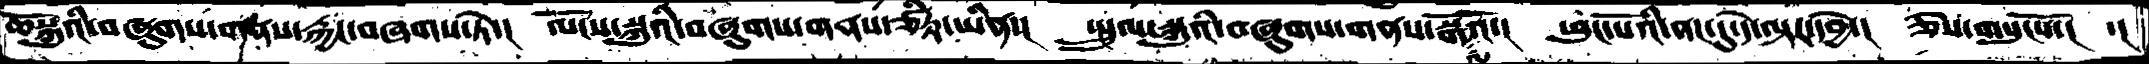ཆོསྐུའི་བཞུགས་གནས་རྐྱང་བཞགས་ཏེ་།  ལོངས་སྐུའི་བཞུགས་གནས་ཙིཏྟ་ཡིན་།  སྤྲུལ་སྐུའི་བཞུགས་གནས་སྒོའོ་།  ཕུང་པོའི་ནང་དུ་དེ་ལྟར་དབྱེ་།  ཅེས་གསུངསོ་།  ་།
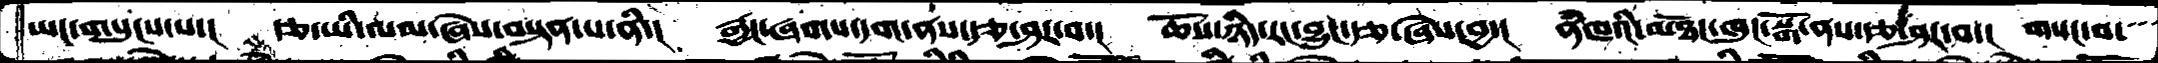ཡང་གསུངས་པ་།  རྩ་ཡི་ལམ་ཞེས་བསྟན་པ་ནི་།  རྒྱང་ཞགས་དག་ནས་རྩ་ཤར་བ་།  ཆོས་ཉིད་རང་བྱུང་རྩ་ཞེས་བྱ་།  ནཾཁའི་མཐོང་ཁུང་སྒོ་ནས་རྩ་ཤར་བ་།  གསང་བ་
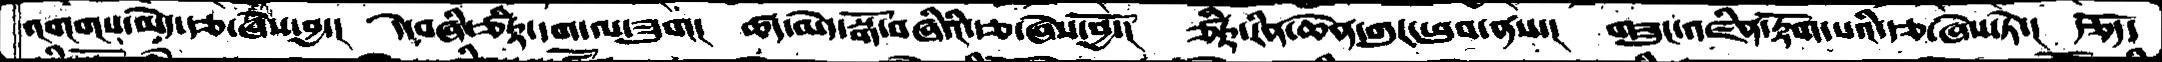འགགས་མེད་རྩ་ཞེས་བྱ་།  དེ་བཞི་ཙིཏྟ་དག་ལ་ཟུག།  ཚད་མེད་སྒོ་བཞིའི་རྩ་ཞེས་བྱོ་།  ཙིཏྟ་རིན་ཆེན་གུར་ཕུབ་ནས་།  གཟུང་འཛིན་རྟོག་པའི་རྩ་ཞེས་ཏེ་།  རྩོད་
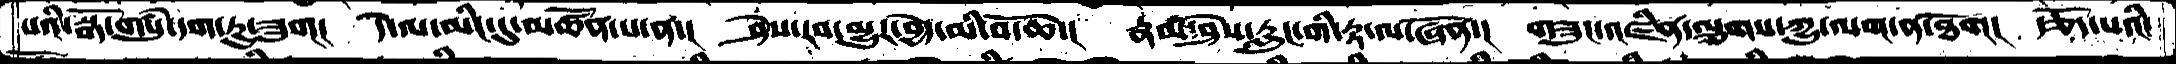པའི་སྒོ་གསུཾ་དག་ཏུ་ཟུག།  དེ་ལ་མིང་དུ་མཚོན་པ་ན་།  ཤེས་རབ་མྱུར་བྱེད་མི་བོ་ཆེ་།  རྣམ་ཤེས་རླུང་གི་རྟ་ལ་ཞོན་།  གཟུང་འཛིན་ལྕགས་ཀྱུ་ལག་ན་ཐོག།  རྩོད་པའི་
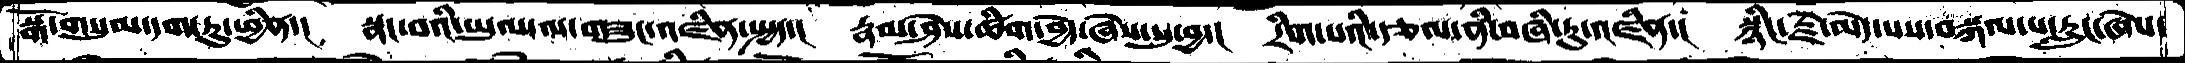སྒོ་གསུམ་དག་ཏུ་ཕྱིན་།   སྣང་བའི་ཡུལ་ལ་གཟུང་འཛིན་སྤྱད་།   རྣམ་ཤེས་ཚིག་བྱེད་ཞེས་སུ་བྱ་།  རིག་པའི་རྩལ་ནི་བཞི་རུ་འཛིན་།  སྙིང་རྗེ་མེད་པས་བསྐལ་པ་རླུང་ཞེས་
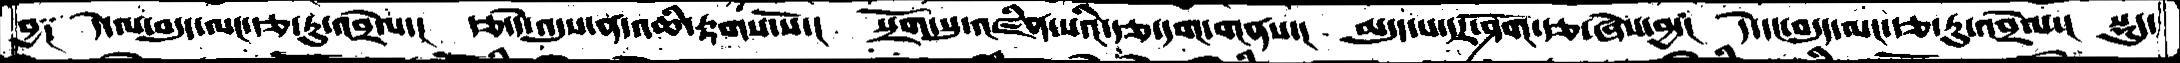བྱ༑   དེ་ལ་བདུད་ལང་རྩ་ཏུ་འབྲེལ་།  རྩ་དེ་འདུས་ན་འཆི་རྟགས་སོ་།  སྲོག་སུ་འཛིན་པའི་རྩ་དག་གནས་།  མདུད་པ་དར་ཤོག་རྩ་ཞེས་བྱ་།  དེ་དང་བདུད་མང་རྩ་ཏུ་འབྲེལ་།  སྡུད་
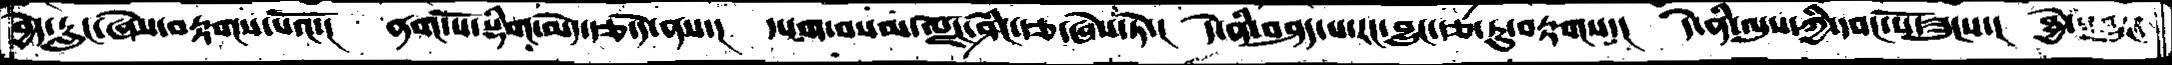བྱེད་རླུང་ཞེས་བརྟགས་པའོ་།  ནག་པོ་སྡིག་མེད་རྩ་དེ་ནས་།  དཔག་བསམ་ལྗོན་ཤིང་རྩ་ཞེས་ཏེ་།  དེ་ནི་བཤད་པ་རང་བྱུང་རྩ་རུ་བརྟགས་།  དེ་ནི་ལུས་ཀྱི་དབང་པོ་ཟུངས་།  ཐྱེ་
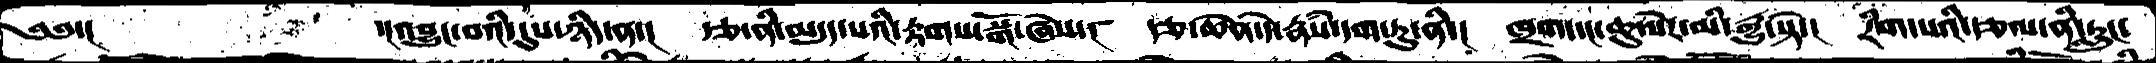༄༅་།           ་།འབྱུང་བའི་དུས་ཉིད་ན་།   རྩ་ནི་མདུད་པའི་རྟགས་སྒོ་ཞེས་།   རྩ་ཆེན་དེ་རྣཾས་དག་ཏུ་ནི་།  ཁྲག་དང་ཆུ་སེར་མི་རྒྱུ་སྟེ་།  རིག་པའི་རྩལ་ནི་རླུང་
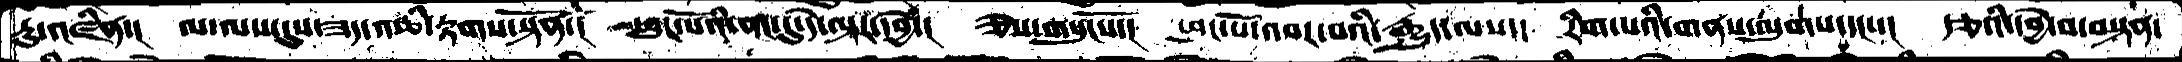རུ་འཛིན་།  ལ་ལས་དུས་ཟད་འཆི་རྟགས་སྟོན་།  ཕུང་པོའི་ནང་དུ་དེ་ལྟར་དབྱེ་།  ཅེས་གསུངསོ་།  ཕུང་པོ་འབར་བའི་རྒྱུད་ལས་།  རིག་པའི་གནས་ལུགས་དང་་།  རྩའི་དབྱེ་བ་བསྟན་
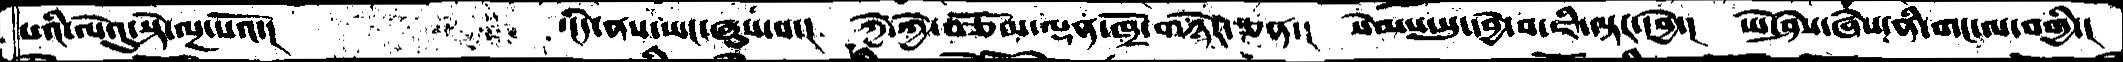པའི་ལེའུ་སྟེ་ལྔ་པའོ་།           ་ ངེད་ནས་ཡང་ཞུས་པ་།   ཀྱེ་ཀྱེ་བཅོམ་ལྡན་ཁྲོ་གཉེར་ཅན་།   སེམས་སུ་དབྱེ་བ་ཇི་ལྟར་དབྱེ་།  ཡེ་ཤེས་ཞེས་ནི་གང་ལ་བགྱི་།
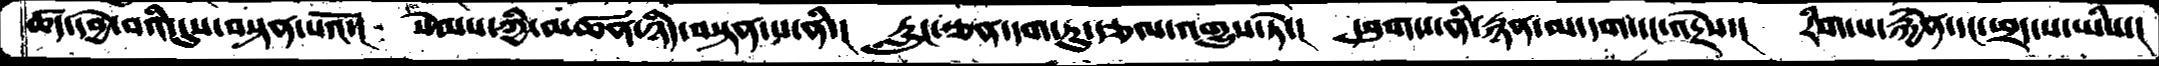ཚད་དབྱེ་བའི་དུས་བསྟན་པའོ་།  སེམས་ཀྱི་མཚན་ཉིད་བསྟན་པ་ནི་།  རླུང་ཅན་དག་ཏུ་རྩལ་འགྱུས་ཏེ་།  དབུགས་ནི་རྙན་མ་དག་དང་འདྲེས་།  རིག་པ་རྐྱེན་དང་ཕྲད་པ་ཡིས་།
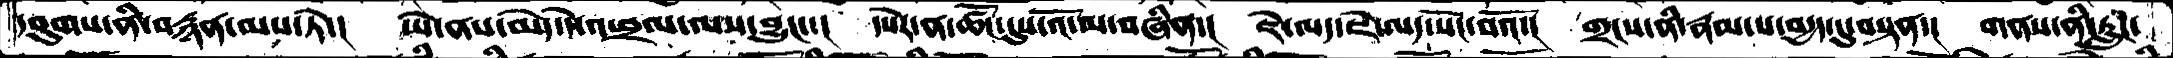དབུགས་ནི་བརྙན་མས་ཏེ་།  ཡེ་ནས་མེད་དེ་འཕྲལ་ལས་བྱུང་་།  དཔེར་ན་ཚོང་དུས་འོ་མ་བཞིན་།  ཇེ་ལད་ཇེ་ལད་སོང་བའོ་།  གྲངས་ནི་རྣམ་པ་བདྱད་དུ་བསྟན་།  གནས་ནི་རླུང་
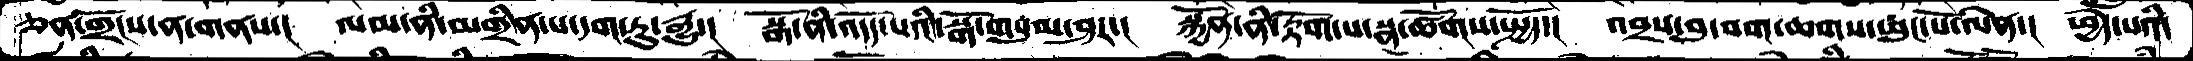ཅན་གྲོངས་ན་གནས་།  ལམ་ནི་མགྲིན་པ་དག་ཏུ་རྒྱུ་།  སྒོ་ནི་འདོད་པའི་སྒོ་གསུམ་ཤར་།  སྐྱོན་ནི་རྟོག་པ་སྣ་ཚོགས་སྤྱོད་།  འབྲས་བུ་བག་ཆགས་ཕུང་པོ་ལེན་།  ཕྱེད་པའི་
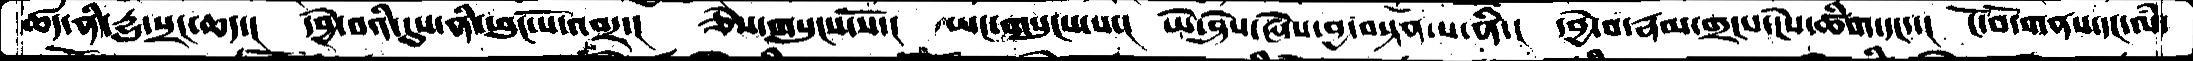ཚད་ནི་དྱུ་སྲང་ཆད་།  དབྱེ་བའི་དུས་ནི་ཕུང་པོ་འབར་།  ཅེས་གསུངས་སོ་།  ཡང་གསུངས་པ་།  ཡེ་ཤེས་ཞེས་བྱ་བསྟན་པ་ནི་།  དབྱེ་བ་རྣམ་གྲངས་ངེས་ཚིག་དང་་།  ངོ་བོ་གནས་དང་ལཾ་
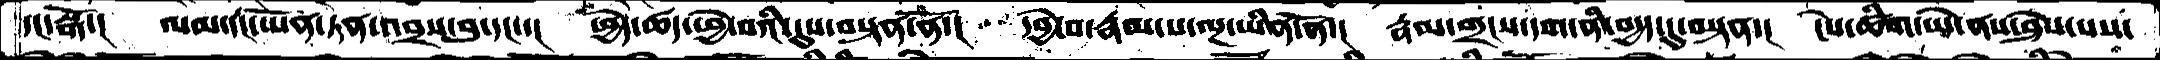དང་སྒོ་།  ལམ་དང་ཡོན་ཏན་འབྲས་བུ་དང་་།  ཕྱེད་ཚད་ཕྱེ་བའི་དུས་བསྟན་ནོ་།  དབྱེ་བ་རྣམ་པ་ལྔ་ཡིན་ནོ་།  རྣམ་གྲངས་དག་ནི་བདྱད་དུ་བསྟན་།  ངེས་ཚིག་ཡེ་ནས་ཤེས་པས་
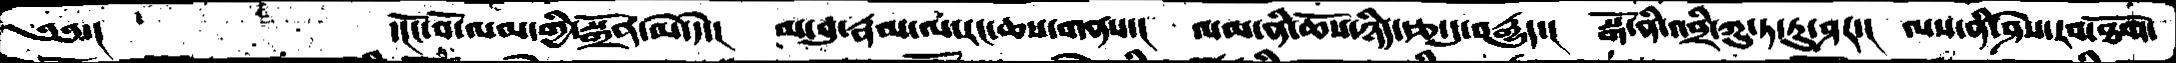༄༅་།      ་།ངོ་བོ་ལམ་གྱི་སྒྲོན་མེ་དེ་།    མ་བུ་རྣམ་ལ་རང་ཆས་གནས་།  ལམ་ནི་ཆོས་ཉིད་རྩ་དུ་བརྒྱུད་།  སྒོ་ནི་འབྲི་ཀུ་ཏ་རུ་ཤར་།  ལས་ནི་ཤེས་རབ་ཐོག་
